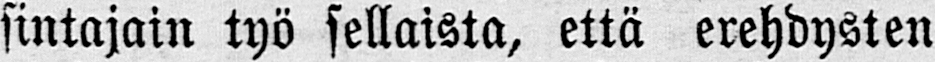sintajain työ sellaista, että erehdysten
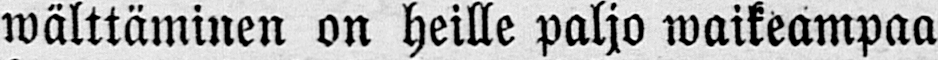wälttäminen on heille paljo waikeampaa
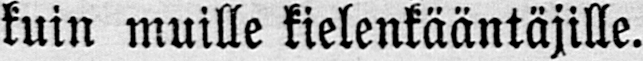kuin muille kielenkääntäjille.
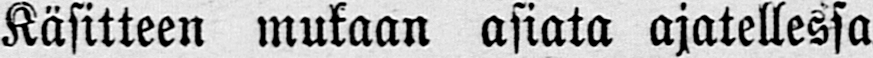Käsitteen mukaan asiata ajatellessa
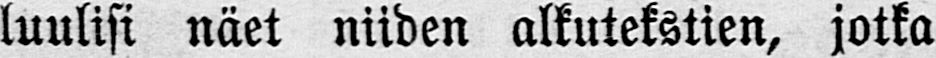luulisi näet niiden alkutekstien, jotka
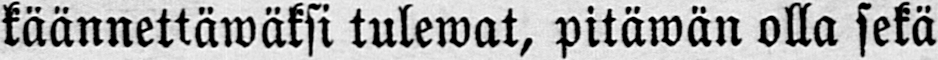käännettäwäksi tulewat, pitäwän olla sekä
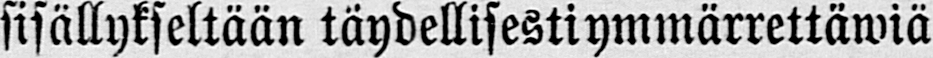sisällykseltään täydellisestiymmärrettäwiä
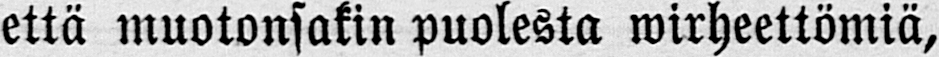että muotonsakin puolesta wirheettömiä,
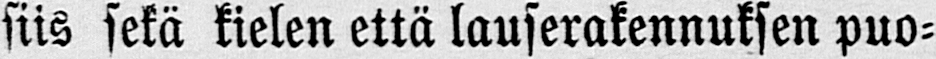siis sekä kielen että lauserakennuksen puo-
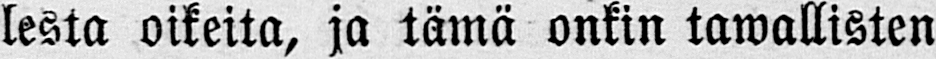lesta oikeita, ja tämä onkin tawallisten
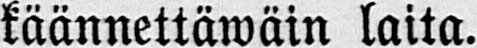käännettäwäin laita.
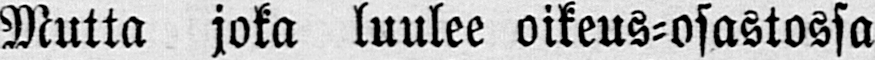Mutta joka luulee oikeus-osastossa
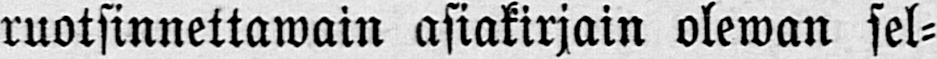ruotsinnettawain asiakirjain olewan sel-
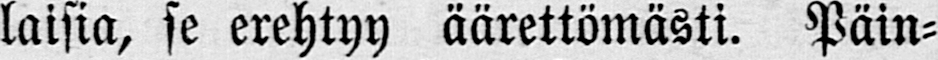laisia, se erehtyy äärettömästi. Päin-
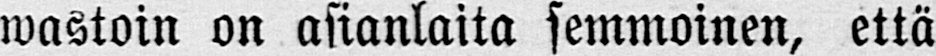wastoin on asianlaita semmoinen, että
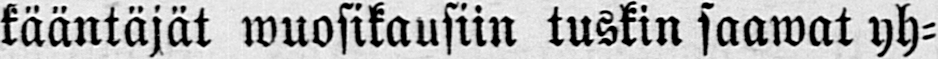kääntäjät wuosikausiin tuskin saawat yh-
